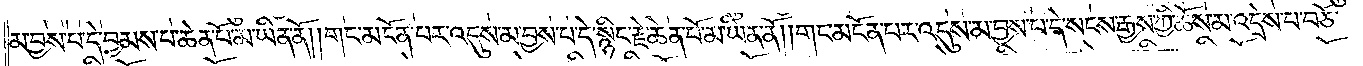མ་བྱས་པ་དེ་བྱམས་པ་ཆེན་པོ་མ་ཡིན་ནོ། །གང་མངོན་པར་འདུས་མ་བྱས་པ་དེ་སྙིང་རྗེ་ཆེན་པོ་མ་ཡིན་ནོ། །གང་མངོན་པར་འདུས་མ་བྱས་པ་དེ་སངས་རྒྱས་ཀྱི་ཆོས་མ་འདྲེས་པ་བཅོ་
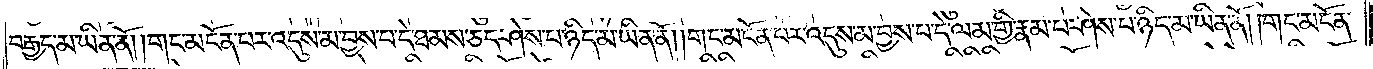བརྒྱད་མ་ཡིན་ནོ། །གང་མངོན་པར་འདུས་མ་བྱས་པ་དེ་ཐམས་ཅད་ཤེས་པ་ཉིད་མ་ཡིན་ནོ། །གང་མངོན་པར་འདུས་མ་བྱས་པ་དེ་ལམ་གྱི་རྣམ་པ་ཤེས་པ་ཉིད་མ་ཡིན་ནོ། །གང་མངོན་
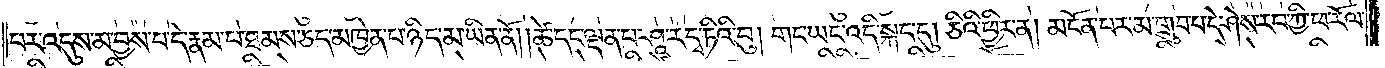པར་འདུས་མ་བྱས་པ་དེ་རྣམ་པ་ཐམས་ཅད་མཁྱེན་པ་ཉིད་མ་ཡིན་ནོ། །ཚེ་དང་ལྡན་པ་ཤཱ་ར་དྭ་ཏིའི་བུ། གང་ཡང་འདི་སྐད་དུ། ཅིའི་ཕྱིར་ན། མངོན་པར་མ་གྲུབ་པ་དེ་ཤེས་རབ་ཀྱི་ཕ་རོལ་
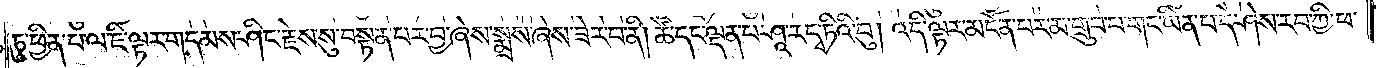ཏུ་ཕྱིན་པ་ལ་ཇི་ལྟར་གདམས་ཤིང་རྗེས་སུ་བསྟན་པར་བྱ་ཞེས་སྨྲས་ཞེས་ཟེར་བ་ནི། །ཚེ་དང་ལྡན་པ་ཤཱ་ར་དྭ་ཏིའི་བུ། འདི་ལྟར་མངོན་པར་མ་གྲུབ་པ་གང་ཡིན་པ་དེ་ཤེས་རབ་ཀྱི་ཕ་
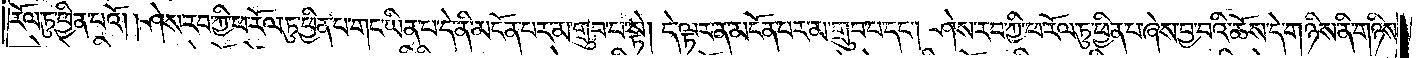རོལ་ཏུ་ཕྱིན་པའོ། །ཤེས་རབ་ཀྱི་ཕ་རོལ་ཏུ་ཕྱིན་པ་གང་ཡིན་པ་དེ་ནི་མངོན་པར་མ་གྲུབ་པ་སྟེ། དེ་ལྟར་ན་མངོན་པར་མ་གྲུབ་པ་དང༌། ཤེས་རབ་ཀྱི་ཕ་རོལ་ཏུ་ཕྱིན་པ་ཞེས་བྱ་བའི་ཆོས་དེ་གཉིས་ནི་གཉིས་
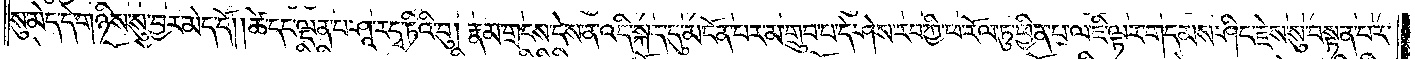སུ་མེད་དེ་གཉིས་སུ་བྱར་མེད་དོ། །ཚེ་དང་ལྡན་པ་ཤཱ་ར་དྭ་ཏིའི་བུ། རྣམ་གྲངས་དེས་ན་འདི་སྐད་དུ་མངོན་པར་མ་གྲུབ་པ་དེ་ཤེས་རབ་ཀྱི་ཕ་རོལ་ཏུ་ཕྱིན་པ་ལ་ཇི་ལྟར་གདམས་ཤིང་རྗེས་སུ་བསྟན་པར་
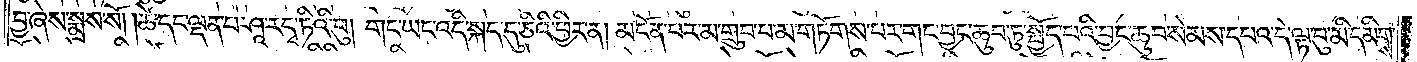བྱ་ཞེས་སྨྲས་སོ། །ཚེ་དང་ལྡན་པ་ཤཱ་ར་དྭ་ཏིའི་བུ། གང་ཡང་འདི་སྐད་དུ་ཅིའི་ཕྱིར་ན། མངོན་པར་མ་གྲུབ་པ་མ་གཏོགས་པར་གང་བྱང་ཆུབ་ཏུ་སྤྱོད་པའི་བྱང་ཆུབ་སེམས་དཔའ་དེ་ལྟ་བུ་མི་དམིགས་
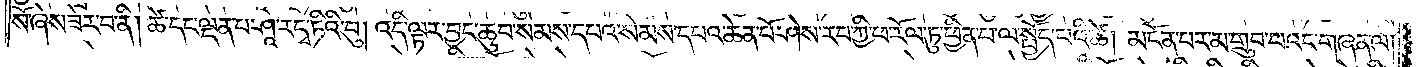སོ་ཞེས་ཟེར་བ་ནི། ཚེ་དང་ལྡན་པ་ཤཱ་ར་དྭ་ཏིའི་བུ། འདི་ལྟར་བྱང་ཆུབ་སེམས་དཔའ་སེམས་དཔའ་ཆེན་པོ་ཤེས་རབ་ཀྱི་ཕ་རོལ་ཏུ་ཕྱིན་པ་ལ་སྤྱོད་པའི་ཚེ། མངོན་པར་མ་གྲུབ་པའང་གཞན་ལ།
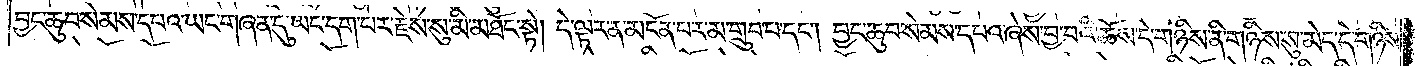བྱང་ཆུབ་སེམས་དཔའ་ཡང་གཞན་དུ་ཡང་དག་པར་རྗེས་སུ་མི་མཐོང་སྟེ། དེ་ལྟར་ན་མངོན་པར་མ་གྲུབ་པ་དང༌། བྱང་ཆུབ་སེམས་དཔའ་ཞེས་བྱ་བའི་ཆོས་དེ་གཉིས་ནི་གཉིས་སུ་མེད་དེ་གཉིས་
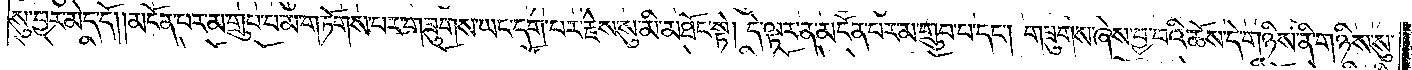སུ་བྱར་མེད་དོ། །མངོན་པར་མ་གྲུབ་པ་མ་གཏོགས་པར་གཟུགས་ཡང་དག་པར་རྗེས་སུ་མི་མཐོང་སྟེ། དེ་ལྟར་ན་མངོན་པར་མ་གྲུབ་པ་དང༌། གཟུགས་ཞེས་བྱ་བའི་ཆོས་དེ་གཉིས་ནི་གཉིས་སུ་
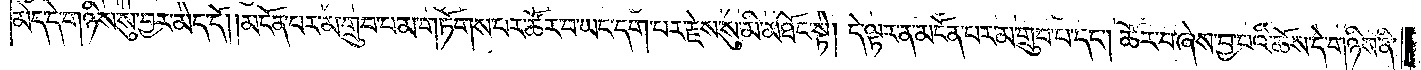མེད་དེ་གཉིས་སུ་བྱར་མེད་དོ། །མངོན་པར་མ་གྲུབ་པ་མ་གཏོགས་པར་ཚོར་བ་ཡང་དག་པར་རྗེས་སུ་མི་མཐོང་སྟེ། དེ་ལྟར་ན་མངོན་པར་མ་གྲུབ་པ་དང༌། ཚོར་བ་ཞེས་བྱ་བའི་ཆོས་དེ་གཉིས་ནི་
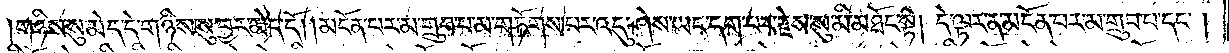གཉིས་སུ་མེད་དེ་གཉིས་སུ་བྱར་མེད་དོ། །མངོན་པར་མ་གྲུབ་པ་མ་གཏོགས་པར་འདུ་ཤེས་ཡང་དག་པར་རྗེས་སུ་མི་མཐོང་སྟེ། དེ་ལྟར་ན་མངོན་པར་མ་གྲུབ་པ་དང༌།
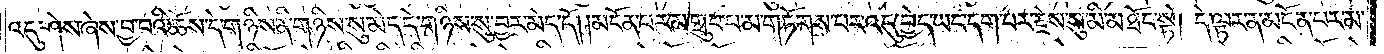འདུ་ཤེས་ཞེས་བྱ་བའི་ཆོས་དེ་གཉིས་ནི་གཉིས་སུ་མེད་དེ་གཉིས་སུ་བྱར་མེད་དོ། །མངོན་པར་མ་གྲུབ་པ་མ་གཏོགས་པར་འདུ་བྱེད་ཡང་དག་པར་རྗེས་སུ་མི་མཐོང་སྟེ། དེ་ལྟར་ན་མངོན་པར་མ་
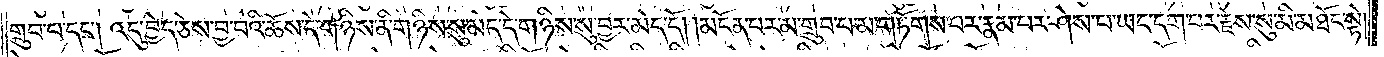གྲུབ་པ་དང༌། འདུ་བྱེད་ཅེས་བྱ་བའི་ཆོས་དེ་གཉིས་ནི་གཉིས་སུ་མེད་དེ་གཉིས་སུ་བྱར་མེད་དོ། །མངོན་པར་མ་གྲུབ་པ་མ་གཏོགས་པར་རྣམ་པར་ཤེས་པ་ཡང་དག་པར་རྗེས་སུ་མི་མཐོང་སྟེ།
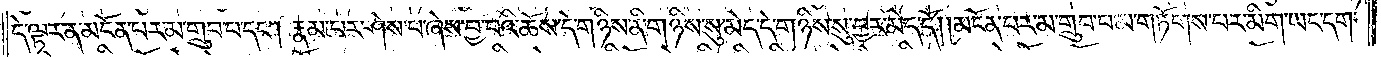དེ་ལྟར་ན་མངོན་པར་མ་གྲུབ་པ་དང༌། རྣམ་པར་ཤེས་པ་ཞེས་བྱ་བའི་ཆོས་དེ་གཉིས་ནི་གཉིས་སུ་མེད་དེ་གཉིས་སུ་བྱར་མེད་དོ། །མངོན་པར་མ་གྲུབ་པ་མ་གཏོགས་པར་མིག་ཡང་དག་
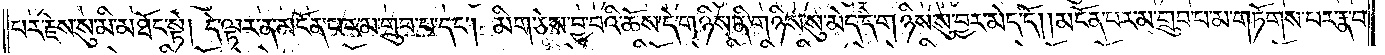པར་རྗེས་སུ་མི་མཐོང་སྟེ། དེ་ལྟར་ན་མངོན་པར་མ་གྲུབ་པ་དང་མིག་ཅེས་བྱ་བའི་ཆོས་དེ་གཉིས་ནི་གཉིས་སུ་མེད་དེ་གཉིས་སུ་བྱར་མེད་དོ། །མངོན་པར་མ་གྲུབ་པ་མ་གཏོགས་པར་རྣ་བ་
